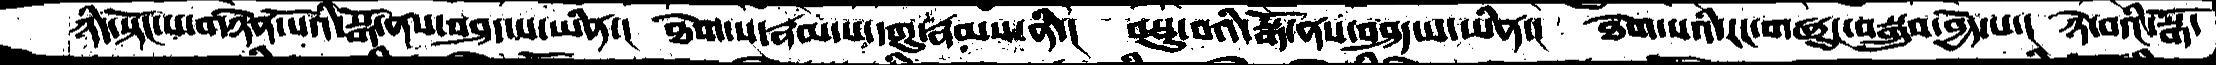ཉིད་སྟོང་པ་གཉེན་པོའི་སྒོ་ནས་བཤད་པ་ཡིན་།  ཐེག་པ་རྣམས་པ་དགུ་རྣམས་ནི་།  བསྡུ་བའི་སྒོ་ནས་བཤད་པ་ཡིན་།  ཐེག་པའི་རང་གཞུང་བསྒྲུབ་བྱེད་པ་།  ཉེ་བའི་སྒོ་
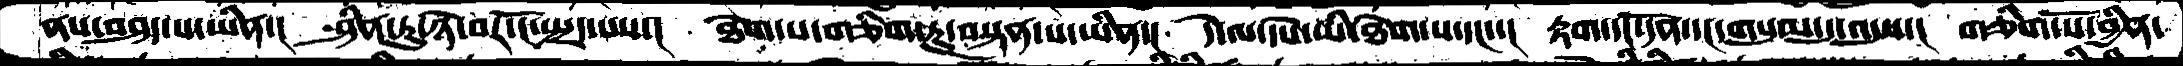ནས་བཤད་པ་ཡིན་།   ཤིན་ཏུ་ཉེ་བར་ངོ་སྤྲད་པས་།  ཐེག་པ་གཅིག་ཏུ་བསྟན་པ་ཡིན་།  དེ་ལ་དཔེ་ཡི་ཐེག་པ་དང་་།  རྟག་དང་དོན་དང་གསུམ་དུ་འདུས་།  གཅིག་པོ་བྱིན་
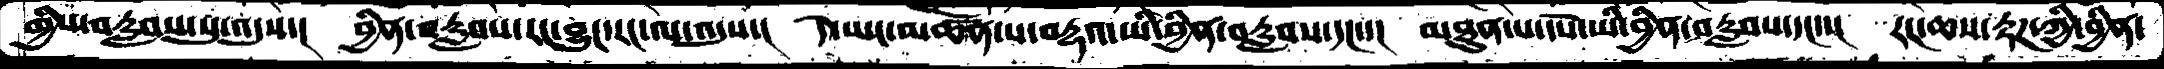གྱིས་བརླབས་སུ་འདུས་།  བྱིན་བརླབས་རང་བྱུང་རང་ལ་འདུས་།  དེ་ཡང་མཚོན་པ་བརྡའ་ཡི་བྱིན་བརླབས་དང་་།  མཐུན་པ་དཔེ་ཡི་བྱིན་བརླབས་དང་་།  རང་ཆས་རྟཌ་ཀྱི་བྱིན་
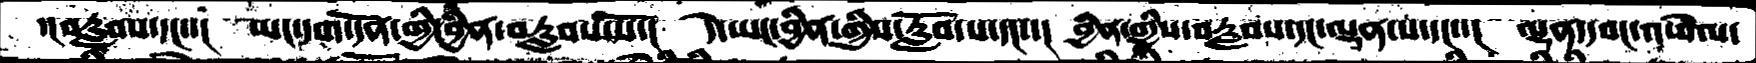་།བརླབས་དང་་།  ཡང་དག་དོན་གྱི་བྱིན་བརླབས་སོ་།  དེ་ཡང་བྱིན་གྱིས་རློབ་པ་དང་་།  བྱིན་གྱིས་བརླབས་དང་ལྡན་པ་དང་་།  ལྷན་དབང་འཕེལ་
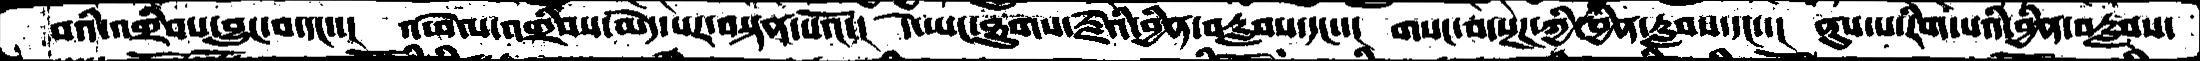བའི་འགྲིབས་བྱུང་བ་དང་་།  འཕེལ་འགྲིབས་མེད་པར་བསྟན་པའོ་།  དེ་ཡང་ཐུགས་རྗེའི་བྱིན་བརླབས་དང་་།  གསང་བ་སྔཌ་ཀྱི་བྱིན་རླབས་དང་་།  ནུས་པ་རིག་པའི་བྱིན་བརླབས་
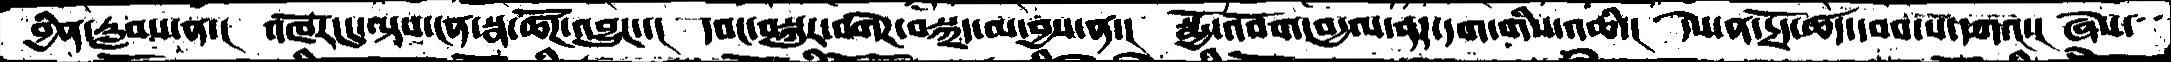བྱིན་རླབས་ན་།  འཁོར་དུ་ལྟས་ངན་སྣ་ཚོཌ་འབྱུང་་།  དབང་བསྐུར་བགེཌ་བསྐྲད་མ་བྱས་ན་།  སྨྱོ་འབོག་བདྱལ་ནར་དག་གིས་འཆི་།  དེས་ན་དྲོད་ཚད་དབབ་པ་དཀའ་།  ཞེས་
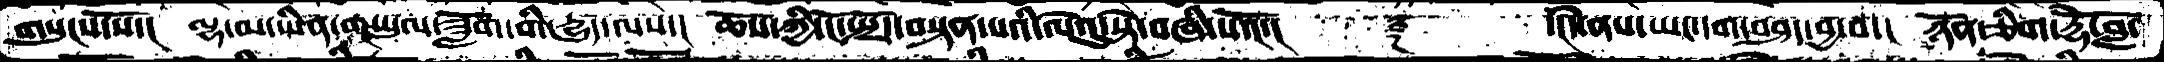གསུངས་སོ་།  ལྷ་མ་ཡིན་གཡུལ་ཟློག་གི་དྱུད་ལས་།  ཆོས་ཀྱི་ངོ་སྤྲོད་བསྟན་པའི་ལེའུ་སྟེ་བཞི་པའོ་།    ༈   ་ངེད་ནས་ཡང་དག་བཤད་བྱ་བ་། ཉོན་ཅིག་རྡོེ་བློ་
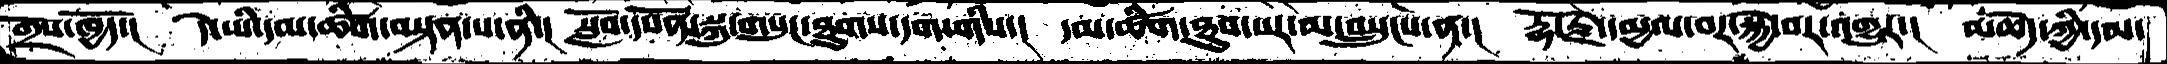གྲོས་ཁྱོད་།  དེ་ཡི་དམ་ཚིག་བསྟན་པ་ནི་།  སློབ་དཔོན་སྐུ་གསུང་ཐུགས་དག་གིས་།  དམ་ཚིག་ཐུབ་པར་མ་བསྲུངས་ན་། རྡོ་རྗེ་དམྱལ་བར་སྐྱེ་བར་འགྱུར་།  མཆེད་ཀྱི་དམ་
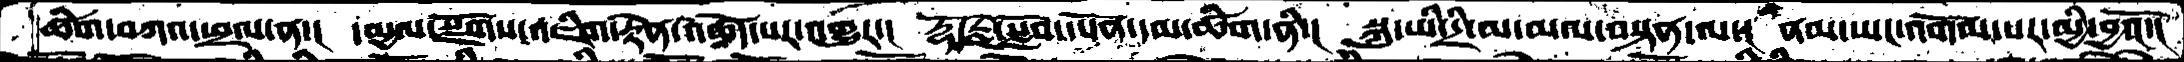ཚིག་བཀའ་ཕྲལ་ན་།  དམྱལ་སྫོགས་འཇིག་རྟེན་འཆོད་པར་འགྱུར་།  རྡོ་རྗེ་སློབ་དཔོན་དམ་ཚིག་ནི་།  སྐུ་ཡི་དྲི་མ་མལ་བསྟན་ལ་།  ནམ་ཡང་འགོམ་པར་མྱི་བྱའོ་།
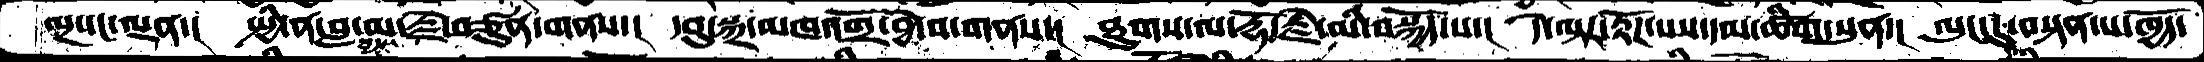ལྔ་དང་ལྡམ་།  སྤྱི་ན་བླ་མ་རྗེ་བཙུན་གནས་།  དབུ་སྐྲ་མཁའགྲོ་བྱེ་བ་གནས་།  ཐུགས་ལ་རྡོ་རྗེ་མི་བསྐྱོད་པ་།  དེ་ལྟར་རྟོཌ་པས་དམ་ཚིག་སུན་།  ལུང་དུ་བསྟན་པ་ཁྱོད་
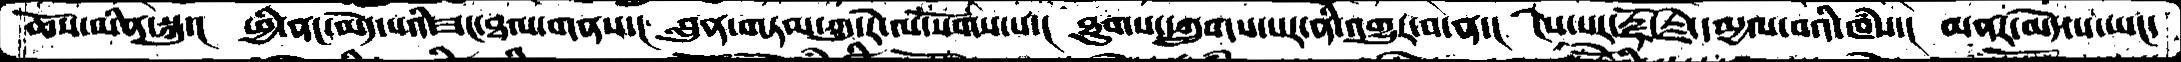ཆོས་མིན་སྐུ་།  ཕྱི་ནང་མེད་པའི་ཟང་ཐལ་གནས་།  བླུན་གཏམ་ཀུ་རེ་ལ་སོགས་པ་།  ཐུགས་དཀྲུགས་པར་ནི་འགྱུར་བ་ན་།  ངེས་པར་རྡོ་རྗེ་དམྱལ་བའི་ཁཾས་།  མནར་མེད་པ་ཡང་
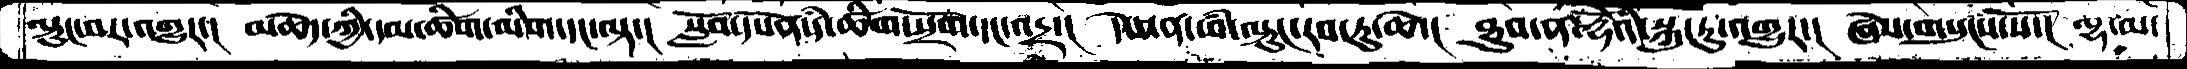ལྟུང་བར་འགྱུར་།  མཆེད་ཀྱི་དམ་ཚིག་མིག་དང་ལྟ་།  སློབ་དཔོན་དཾ་ཚིག་སྲོག་དང་འདྲ་།  དེས་ན་ཕཾ་ལྟུང་རབ་ཏུ་ཆེ་།  ཐུབ་ན་རྡོེའི་སྐུ་རུ་འགྱུར་།  ཞེས་གསུངས་སོ་།  ལྷ་མ་
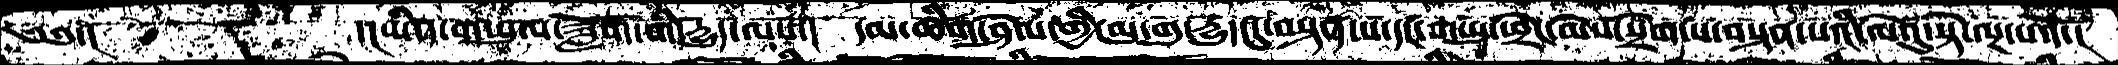༄༅་།   ་།མིན་གཡུལ་ཟློག་གི་རྒྱུད་ལས་།  དམ་ཚིག་ཤེལ་གྱི་མུ་གུ་རྒྱུད་དུ་བསྟན་པ་དང་གཡུ་ཕྲེང་མེས་སྲེག་པ་བསྟན་པའི་ལེའུ་སྟེ་ལྔ་པའོ་།
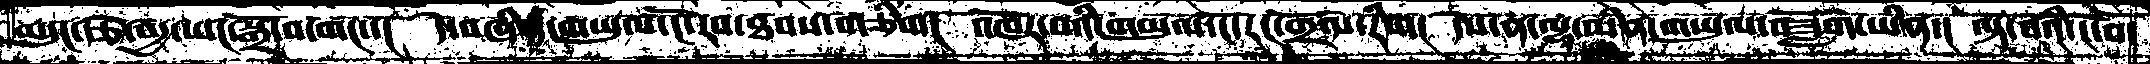མདུང་རྩེ་བདྱ་ཡང་སྒྲོ་བ་གང་།  དེ་བཞིན་གཡུལ་ངོ་རབ་ཐབས་གཅིག།  འཁོར་བའི་གཡུལ་ངོ་རང་གྲོལ་རིག།  དེས་ན་ལྷ་མིན་གཡུལ་བཟློག་ཡིན་།  ལྟ་བའི་ངོ་བོ་
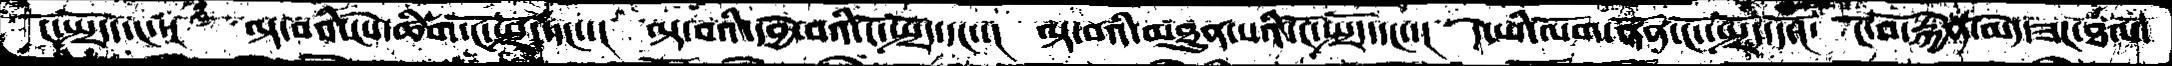ངོ་སྤྲོད་དང་་།  ལྟ་བའི་ངེས་ཚིག་ངོ་སྤྲོད་དང་་།  ལྟ་བའི་དབྱེ་བའི་ངོ་སྤྲོད་དང་་།  ལྟ་བའི་མཐུན་པའི་ངོ་སྤྲོད་དང་་།  དེ་ཡི་ལོག་ནོན་ངོོ་སྤྲོད་དོ་།   ངོ་བོ་རྐྱེན་མེད་ཟང་ཐལ་
